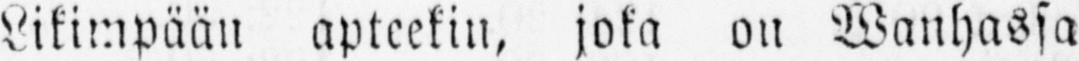Likimpään apteekin, joka on Wanhassa
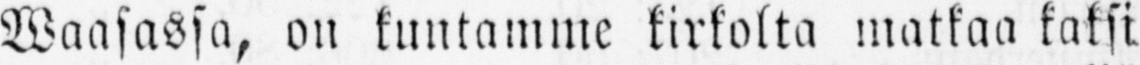Waasassa, on kuntamme kirkolta matkaa kaksi
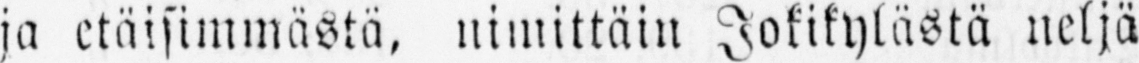ja etäisimmästä, nimittäin Jokikylästä neljä
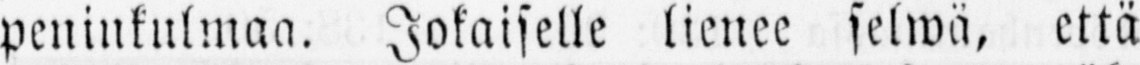peninkulmaa. Jokaiselle lienee selwä, että
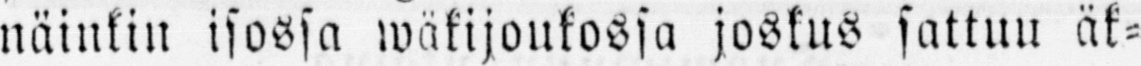näinkin isossa wäkijoukossa joskus sattuu äk-
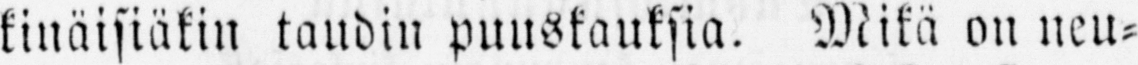kinäisiäkin taudin puuskauksia. Mikä on neu-
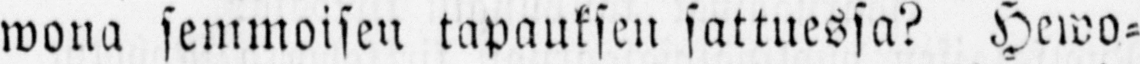wona semmoisen tapauksen sattuessa? Hewo-
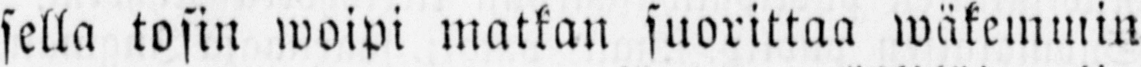sella tosin woipi matkan suorittaa wäkemmin
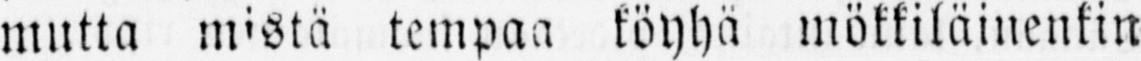mutta mistä tempaa köyhä mökkiläinenkin
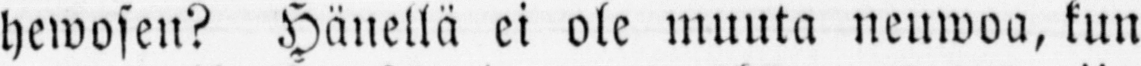hewosen? Hänellä ei ole muuta neuwoa, kun
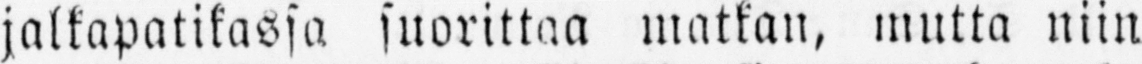jalkapatikassa suorittaa matkan, mutta niin
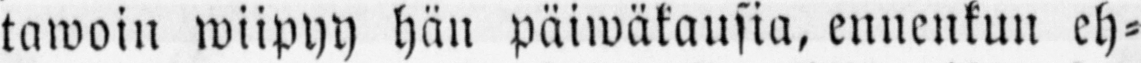tawoin wiipyy hän päiwäkausia, ennenkun eh-
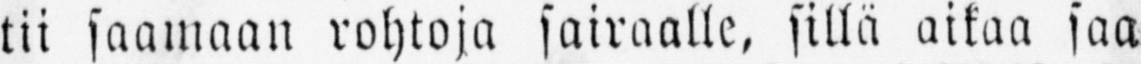tii saamaan rohtoja sairaalle, sillä aikaa saa
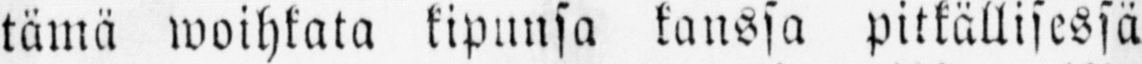tämä woihkata kipunsa kanssa pitkällisessä
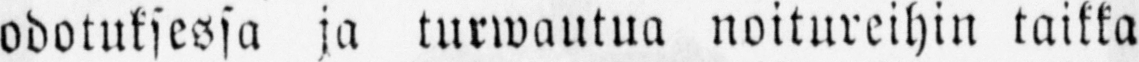odotuksessa ja turwautua noitureihin taikka
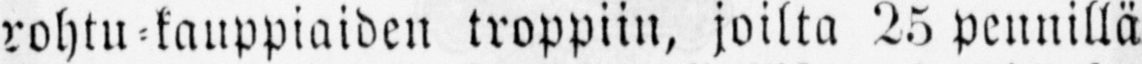rohtu-kauppiaiden troppiin, joilta 25 pennillä
